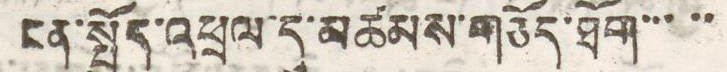ང་སྤྱོད་འཕྲལ་དུ་མཚམས་གཅོད་ཐོག་་་་་
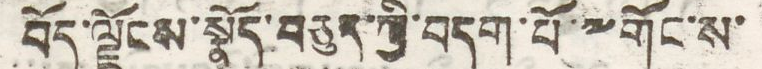བོད་ལྗོངས་སྣོད་བཅུད་ཀྱི་བདག་པོ་༸གོང་ས་
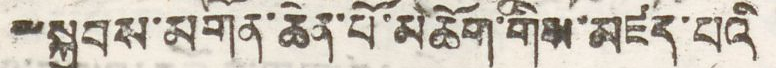༸སྐྱབས་མགོན་ཆེན་པོ་མཆོག་གིས་མཛད་པའི
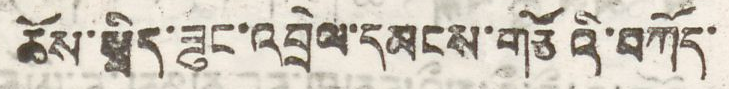ཆོས་སྲིད་ཟུང་འབྲེལ་དམངས་གཙོའི་བཀོད་
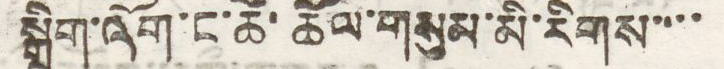སྒྲིག་འོག་ང་ཚོ་ཆོལ་གསུམ་མི་རིགས་་་་
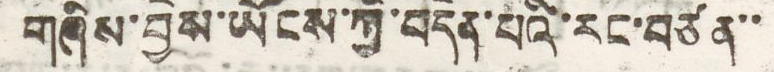གཞིས་བྱེས་ཡོངས་ཀྱི་བདེན་པའི་རང་བཙན་་
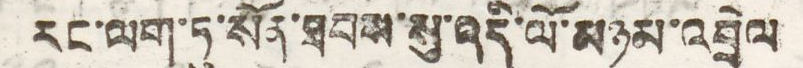རང་ལག་ཏུ་སོན་ཐབས་སུ་འདི་ལོ་མཉམ་འབྲེལ
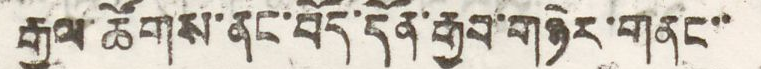རྒྱལ་ཚོགས་ནང་བོད་དོན་རྒྱབ་གཉེར་གནང་་
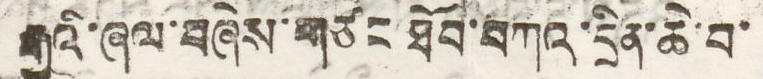རྒྱུའི་ཞལ་བཞེས་གཙང་ཐོབ་བཀའ་དྲིན་ཆེ་བ་
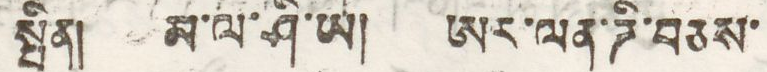སྦིན། མ་ལ་ཤི་ཡ། ཨར་ལན་ཌི་བཅས་
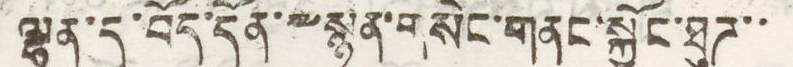ལྷན་དུ་བོད་དོན་༸སྙན་གསེང་གནང་སྐྱོང་ཐུཌ་་
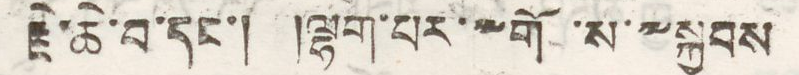རྗེ་ཆེ་བ་དང་། །ལྷག་པར་༸གོང་ས་༸སྐྱབས
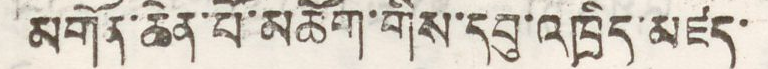མགོན་ཆེན་པོ་མཆོག་གིས་དབུ་འཁྲིད་མཛད་
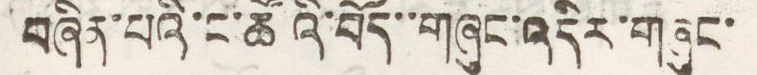བཞིན་པའི་ང་ཚོའི་བོད་་གཞུང་འདིར་གཞུང་
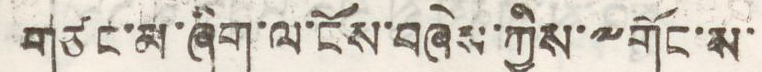གཙང་མ་ཞིག་ལ་ངོས་བཞེས་ཀྱིས་༸གོང་ས་
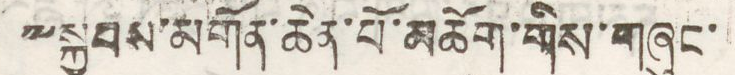༸སྐྱབས་མགོན་ཆེན་པོ་མཆོག་གིས་གཞུང་
